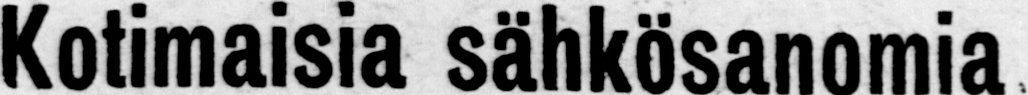Kotimaisia sähkösanomia
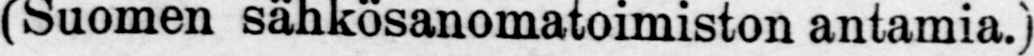Suomen sähkösanomatoimiston antamia.)
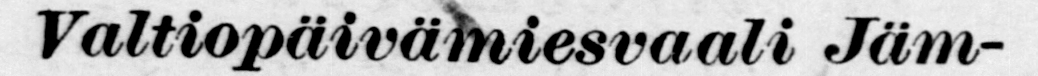Valtiopäivämiesvaali Jäm-
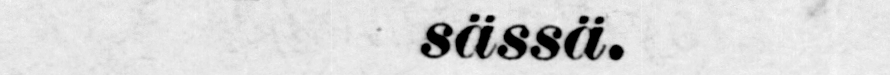sässä.
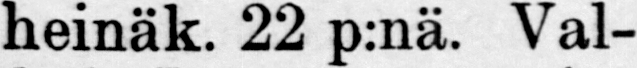heinäk. 22 p:nä. Val-
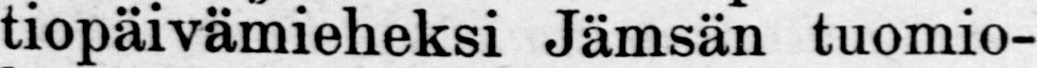tiopäivämieheksi Jämsän tuomio-
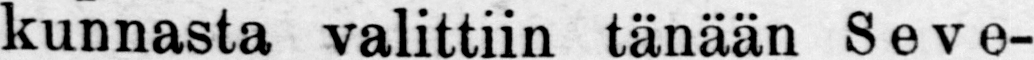kunnasta valittiin tänään Seve-
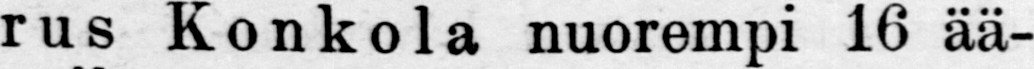rus Konkola nuorempi 16 ää-
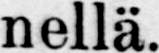nellä.
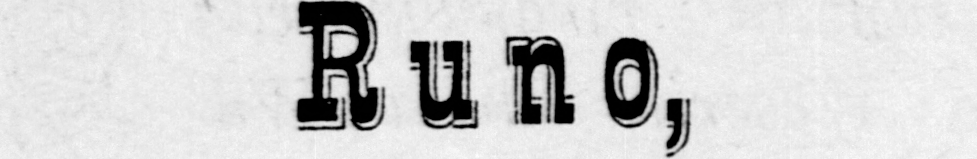Runo,
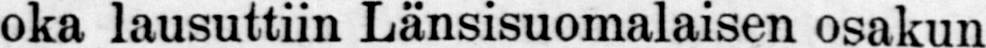oka 1ausuttiin Länsisuoma1aisen 0sakun-
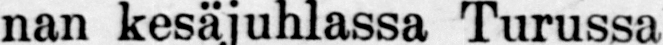nan kesäjuh1assa Turussa
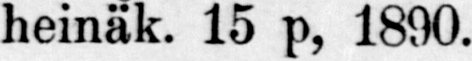heinäk. 15 p, 1890.
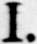1.
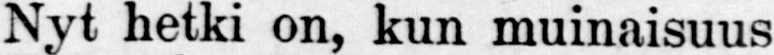Nyt hetki on, kun muinaisuus
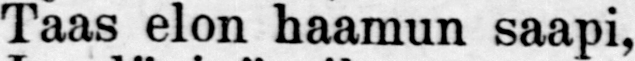Taas elon haamun saapi,
